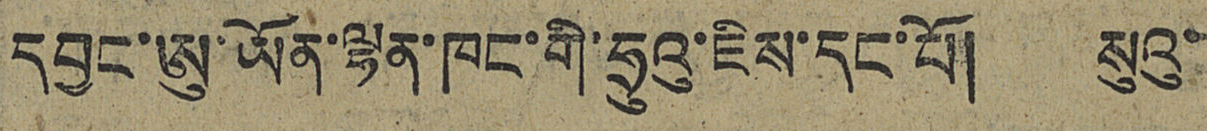དབྱང་ཨུ་ཡོན་ལྷན་ཁང་གི་ཧྲུའུ་ཇིས་དང་པོ། སུའུ་
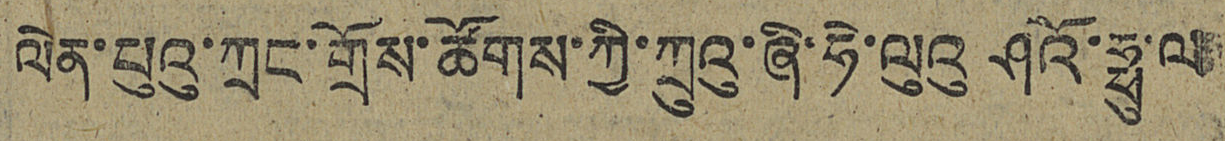ལེན་པུའུ་ཀྲང་གྲོས་ཚོགས་ཀྱི་ཀྲུའུ་ཞི་ཧེ་ལུའུ་ཤའོ་ཧྥུ་ལ
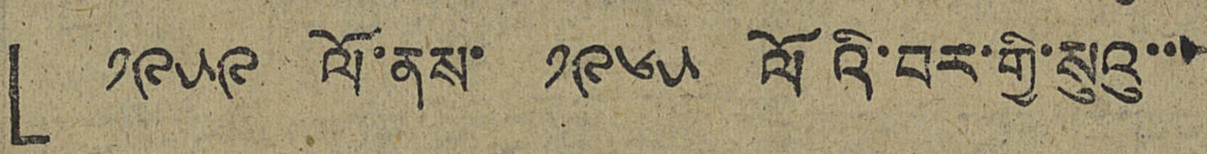「༡༩༥༩ ལོ་ནས་ ༡༩༦༥ ལོའི་བར་གྱི་སུའུ་་་
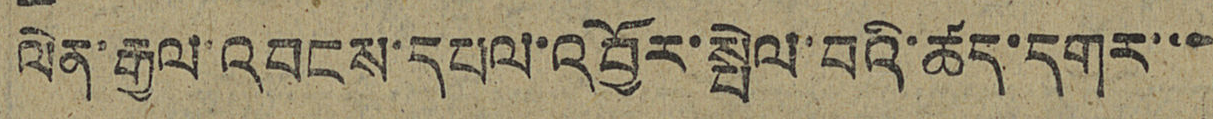ལེན་རྒྱལ་འབངས་དཔལ་འབྱོར་སྤེལ་བའི་ཚད་དགར་་་
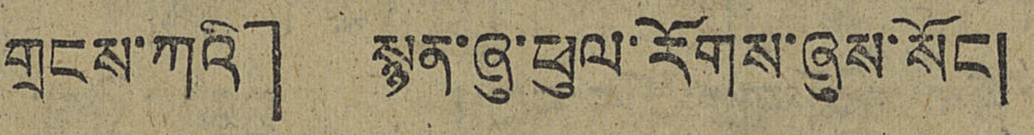གྲངས་ཀའི」 སྙན་ཞུ་ཕུལ་རོགས་ཞུས་སོང་།
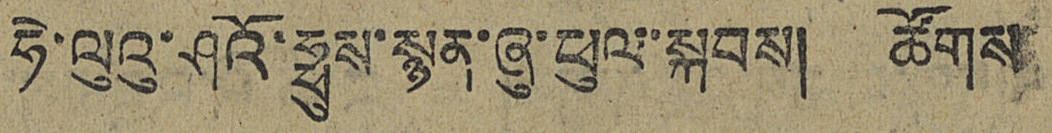ཧེ་ལུའུ་ཤའོ་ཧྥུས་སྙན་ཞུ་ཕུལ་སྐབས། ཚོགས
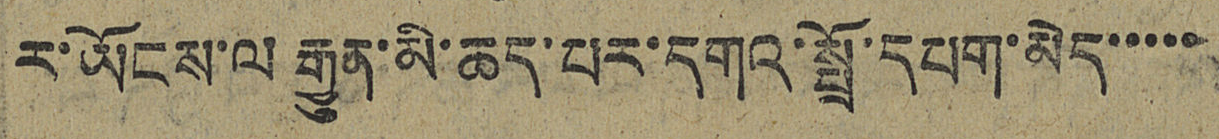ར་ཡོངས་ལ རྒྱུན་མི་ཆད་པར་དགའ་སྤྲོ་དཔག་མེད་་་་་
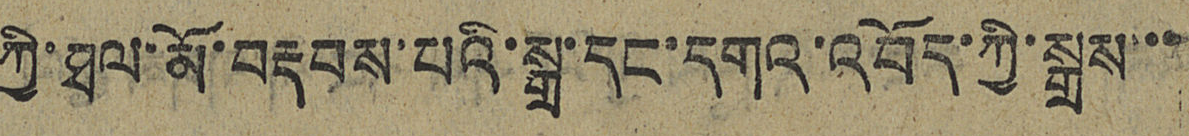ཀྱི་ཐལ་མོ་བརྡབས་པའི་སྒྲ་དང་དགའ་འབོད་ཀྱི་སྒྲས་་་
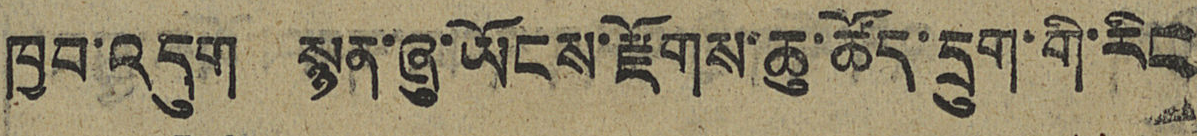ཁྱབ་འདུག སྙན་ཞུ་ཡོངས་རྫོགས་ཆུ་ཚོད་དྲུག་གི་རིང
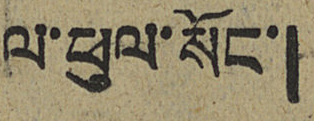ལ་ཕུལ་སོང་།
